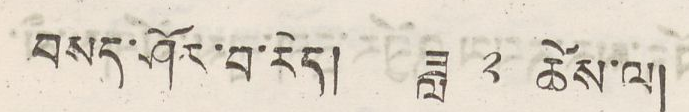བསད་ཤོར་བ་རེད། ཟླ ༢ ཚེས་ལ།
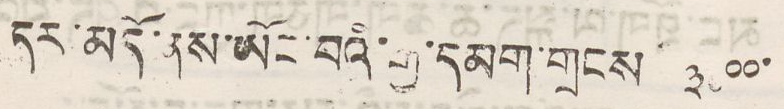དར་མདོ་ནས་ཡོང་བའི་རྒྱ་དམག་གྲངས་ ༣༠༠༠་
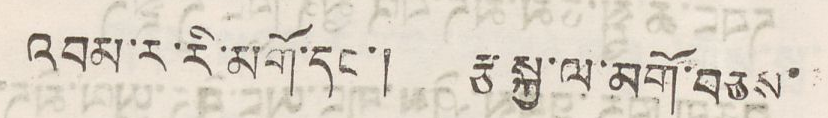འབམ་ར་རི་མགོ་དང་། རྩ་སྐྱ་ལ་མགོ་བཅས་
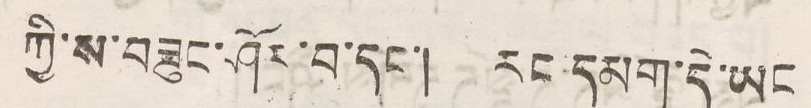ཀྱི་ས་བཟུང་ཤོར་བ་དང་། རང དམག་དེ་ཡང
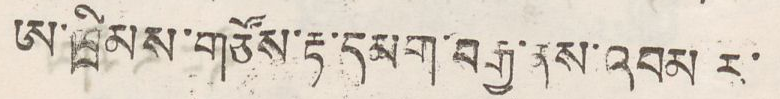ཨ་ཁྲིམས་གཙོས་རྟ་དམག་བརྒྱ་ནས་འབམ ར་
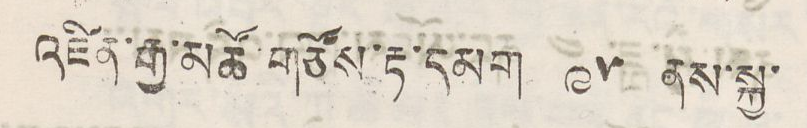འཛིན་རྒྱ་མཚོ་གཙོས་རྟ་དམག ༩༥ ནས་སྐྱ་
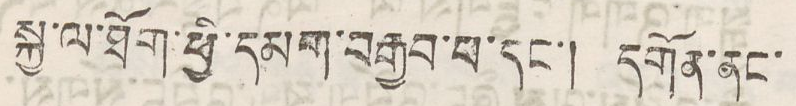སྐྱ་ལ་ཐོག་ཕྱི་དམག་བརྒྱབ་པ་དང་། དགོན་ནང་
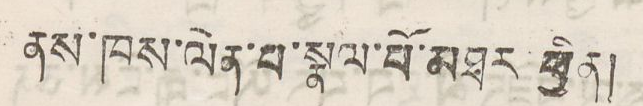ནས་ཁས་ལེན་བ་སྣལ་བོ་མཐར་ཕྱིན།
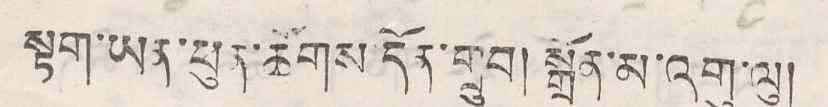སྟག་ཡན་ཕུད་ཚོགས་དོན་གྲུབ། སྒྲོན་མ་འགུ་ལུ།
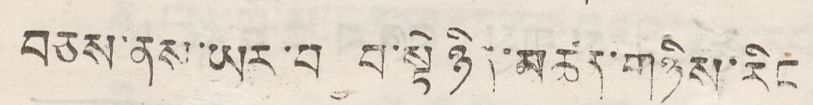བཅས་ནས་ཡར་བ བ་སྟེ་ཉིན་མཚན་གཉིས་རིང
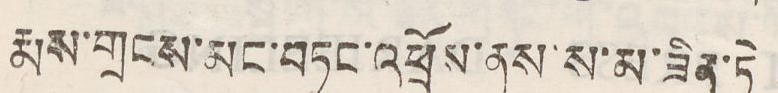རྨས་གྲངས་མང་བཏང་འཕྲོས་ནས་ས་མ་ཟིན་ཏེ
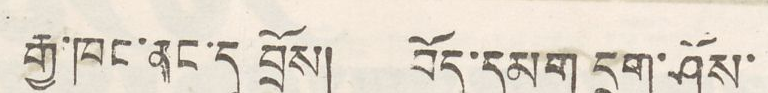རྒྱ་ཁང་ནང་དུ བྲོས། བོད་དམག དྲག་ཤོས་
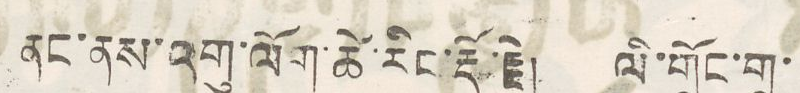ནང་ནས་འགུ་ལོག་ཚེ་རིང་རྡོ་རྗེ། ལི་གྲོང་གྲ་
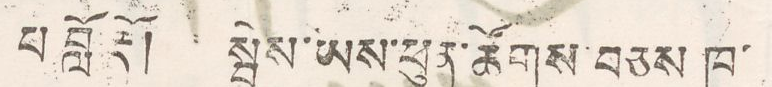པ བློ རྡོ། སྦེས་ཡས་ཕུན་ཚོགས བཅས ཁ་
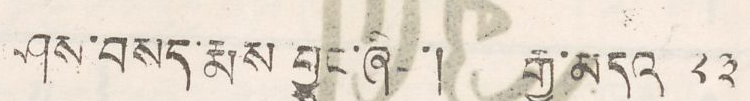ཤས་བསད་རྨས བྱུང་ཞིང་། རྒྱ་མདའ་ ༢༣
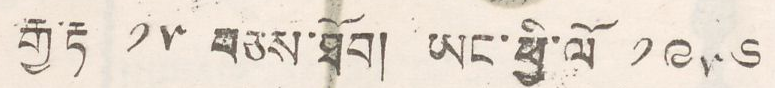རྒྱ་རྟ་ ༡༥ བཅས་ཐོབ། ཡང་ཕྱི་ལོ ༡༩༥༦
